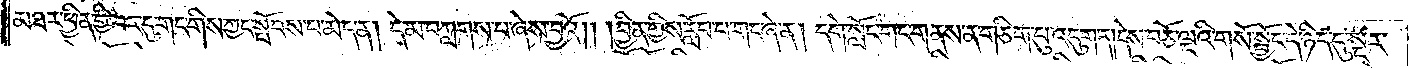མཐར་ཕྱིན་གྱི་བར་དུ་གང་གིས་ཀྱང་སྤོབས་པ་མེད་ན། དེ་མ་བཀླགས་པ་ཞེས་བྱའོ། །བྱིན་གྱིས་རློབ་པ་གང་ཞེ་ན། དགེ་སློང་གང་གནས་ན་གཅིག་པུ་འདུག་ན། དེས་བཅོ་ལྔའི་གསོ་སྦྱོང་དེ་ཉིད་དུ་སྔར་
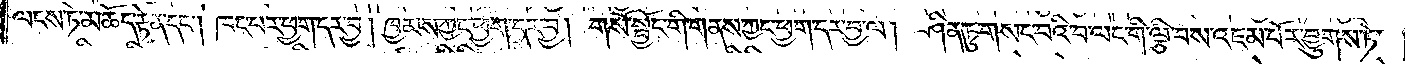ལངས་ཏེ་མཆོད་རྟེན་དང༌། ཁང་པར་ཕྱག་དར་བྱ། ཁྱམས་ཀྱང་ཕྱག་དར་བྱ། གསོ་སྦྱོང་གི་གནས་ཀྱང་ཕྱར་དར་བྱ་ལ། ཤིན་ཏུ་གསང་བའི་བ་ལང་གི་ལྕི་བས་འཇམ་པོར་བྱུགས་ཏེ་
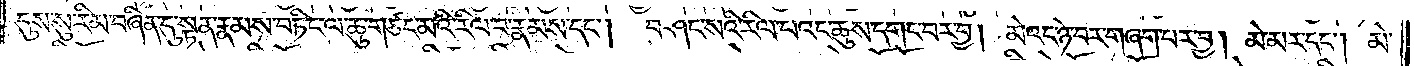དུས་སུ་རིམ་བཞིན་དུ་སྟན་རྣམས་བཏིང་ལ་ཆུ་གཙང་མའི་རིལ་བ་རྣམས་དང༌། བཤང་སའི་རིལ་པའང་ཆུས་དགང་བར་བྱ། མེའང་ཉེ་བར་གཞག་པར་བྱ། མེ་མར་དང༌། མེ་
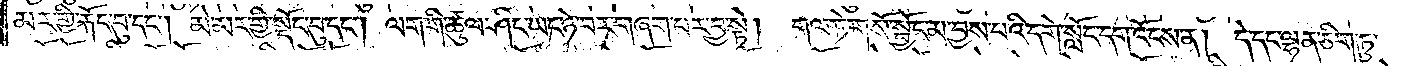མར་གྱི་རྐོང་བུ་དང༌། མེ་མར་གྱི་སྡོང་བུ་དང༌། ལག་གི་ཚུལ་ཤིང་ཡང་ཉེ་བར་གཞག་པར་བྱ་སྟེ། གལ་ཏེ་གསོ་སྦྱོང་མ་བྱས་པའི་དགེ་སློང་དག་འོངས་ན། དེ་དང་ལྷན་ཅིག་ཏུ་
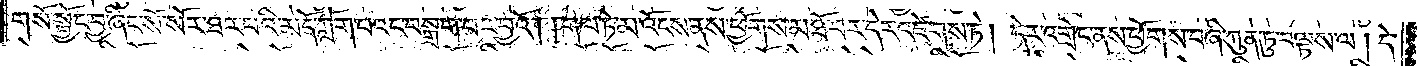གསོ་སྦྱོང་བྱ་ཞིང་སོ་སོར་ཐར་པའི་མདོ་ཀློག་པའང་བསྒྲག་པར་བྱའོ། །གལ་ཏེ་མ་འོངས་ནས་ཕྱོགས་མཐོ་བར་དེར་འཛེགས་ཏེ། དེར་འགྲེང་ནས་ཕྱོགས་བཞི་ཀུན་ཏུ་བལྟས་ལ། དེ་
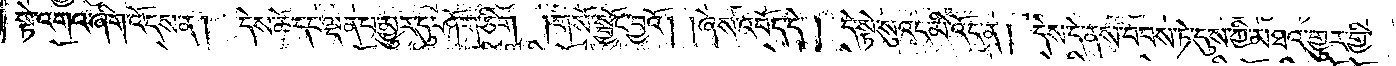སྟེ་འགའ་ཞིག་འོངས་ན། དེས་ཚེ་དང་ལྡན་པ་མྱུར་དུ་ཤོག་ཅིག །གསོ་སྦྱོང་བྱའོ། །ཞེས་འབོད་དེ། དེ་སྟེ་སུའང་མི་འོང་ན། དེས་དེ་ནས་བབས་ཏེ་དུས་ཀྱི་མཐའ་གྱུར་གྱི་
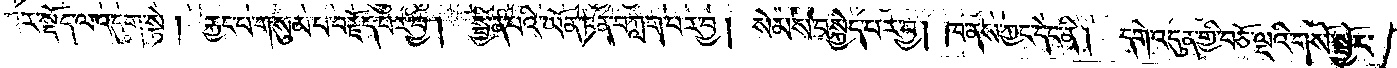བར་སྡོད་ལ་འདུག་སྟེ། རྐྱང་པ་གསུམ་པ་བརྗོད་པར་བྱ། སྦྱིན་པའི་ཡོན་ཏན་བཀླག་པར་བྱ། སེམས་བསྐྱེད་པར་བྱ། ཁ་ནས་ཀྱང་དེང་ནི། དགེ་འདུན་གྱི་བཅོ་ལྔའི་གསོ་སྦྱོང་
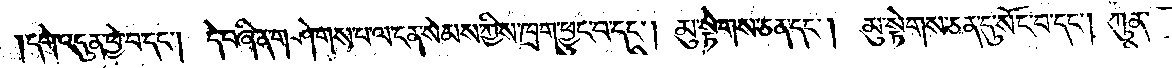དགེ་འདུན་ཕྱེ་བ་དང༌། དེ་བཞིན་གཤེགས་པ་ལ་ངན་སེམས་ཀྱིས་ཁྲག་ཕྱུང་བ་དང༌། མུ་སྟེགས་ཅན་དང༌། མུ་སྟེགས་ཅན་དུ་སོང་བ་དང༌། ཀུན་
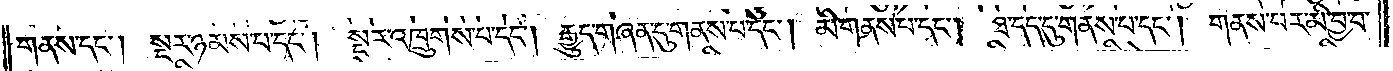གནས་དང༌། སྔར་ཉམས་པ་དང༌། སྔར་འཁྲུགས་པ་དང༌། རྒྱུད་གཞན་དུ་གནས་པ་དང༌། མི་གནས་པ་དང༌། ཐ་དད་དུ་གནས་པ་དང༌། གནས་པར་མི་བྱ་བ་
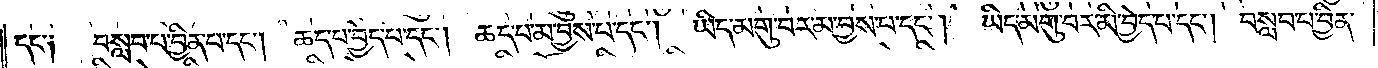དང་༑ བསླབ་པ་བྱིན་པ་དང༌། ཆད་པ་བྱེད་པ་དང༌། ཆད་པ་མ་བྱས་པ་དང༌། ཡིད་མགུ་བར་མ་བྱས་པ་དང༌། ཡིད་མགུ་བར་མི་བྱེད་པ་དང༌། བསླབ་པ་བྱིན་
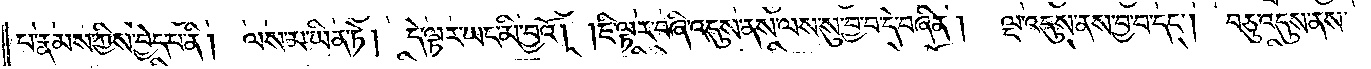པ་རྣམས་ཀྱིས་བྱེད་པ་ནི། ལས་མ་ཡིན་ཏེ། དེ་ལྟར་ཡང་མི་བྱའོ། །ཇི་ལྟར་བཞི་འདུས་ནས་ལས་སུ་བྱ་བ་དེ་བཞིན། ལྔ་འདུས་ནས་བྱ་བ་དང༌། བཅུ་འདུས་ནས་
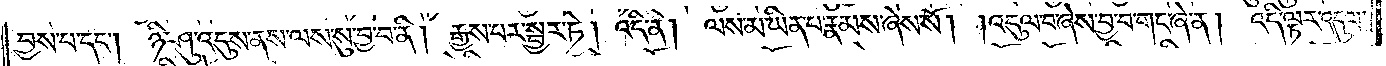བྱས་པ་དང༌། ཉི་ཤུ་འདུས་ནས་ལས་སུ་བྱ་བ་ནི། རྒྱས་པར་སྦྱར་ཏེ། འདི་ནི། ལས་མ་ཡིན་པ་རྣམས་ཞེས་སོ། །འདུལ་བ་ཞེས་བྱ་བ་གང་ཞེ་ན། འདི་ལྟར་འདུལ་
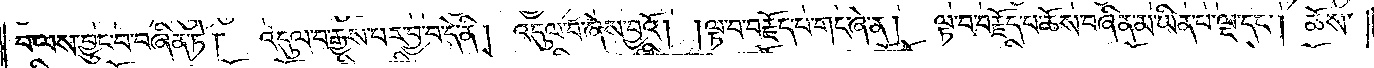བ་ལས་བྱུང་བ་བཞིན་ཏེ། འདུལ་བ་རྒྱས་པར་བྱ་བ་དེ་ནི། འདུལ་བ་ཞེས་བྱའོ། །ལྟ་བ་བརྗོད་པ་གང་ཞེ་ན། ལྟ་བ་བརྗོད་པ་ཆོས་བཞིན་མ་ཡིན་པ་ལྔ་དང༌། ཆོས་
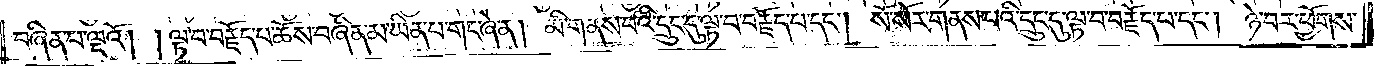བཞིན་པ་ལྔའོ། །ལྟ་བ་བརྗོད་པ་ཆོས་བཞིན་མ་ཡིན་པ་གང་ཞེ་ན། མི་གནས་པའི་དྲུང་དུ་ལྟ་བ་བརྗོད་པ་དང༌། སོ་སོར་གནས་པའི་དྲུང་དུ་ལྟ་བ་བརྗོད་པ་དང༌། ཉེ་བར་ཕྱོགས་
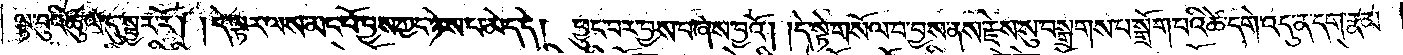ལྟ་བུའི་ཚུལ་དུ་སྦྱར་རོ། །དེ་ལྟར་ལས་མང་པོ་བྱས་ཀྱང་ཉེས་པ་མེད་དེ། ཕྱུང་བར་བྱས་པ་ཞེས་བྱའོ། །དེ་སྟེ་གསོལ་བ་བྱས་ནས་རྗེས་སུ་བསྒྲགས་པ་སྒྲོག་པའི་ཚེ་དགེ་འདུན་དག་རྣམ་
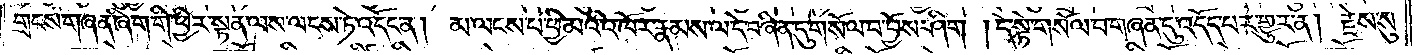གྲངས་གཞན་ཞིག་གི་ཕྱིར་སྟན་ལས་ལངས་ཏེ་འདོང་ན། མ་ལངས་པ་ཕྱི་མའི་འཁོར་རྣམས་ལ་དེ་བཞིན་དུ་གསོལ་བ་བྱོས་ཤིག །དེ་སྟེ་གསོལ་བ་གཞན་དུ་འདོད་པར་གྱུར་ན། རྗེས་སུ་
